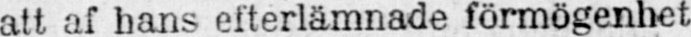att af hans efterlämnade förmögenhet
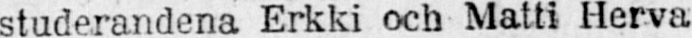studerandena Erkki och Matti Herva
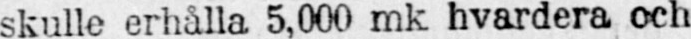skulle erhålla 5,000 mk hvardera och
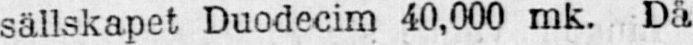sällskapet Duodecim 40,000 mk. Då
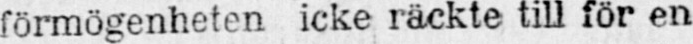förmögenheten icke räckte till för en
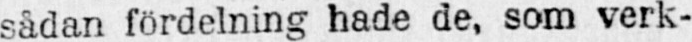sådan fördelning hade de, som verk-
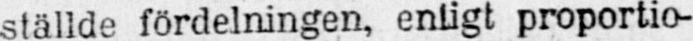ställde fördelningen, enligt proportio-
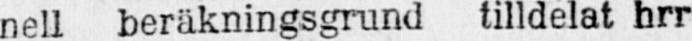nell beräkningsgrund tilldelat hrr
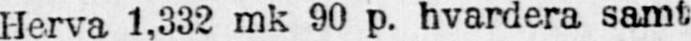Herva 1,332 mk 90 p. hvardera samt
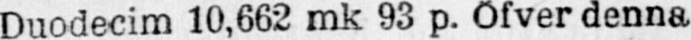Duodecim 10,662 mk 93 p. Öfver denna
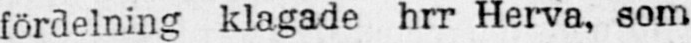fördelning klagade hrr Herva, som
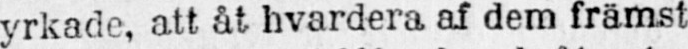yrkade, att åt hvardera af dem främst
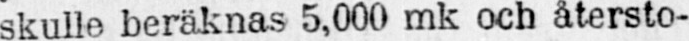skulle beräknas 5,000 mk och återsto-
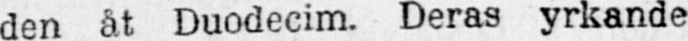den åt Duodecim. Deras yrkande
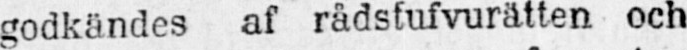godkändes af rådstufvurätten och
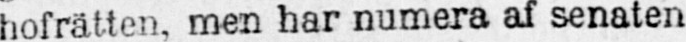hofrätten, men har numera af senaten
